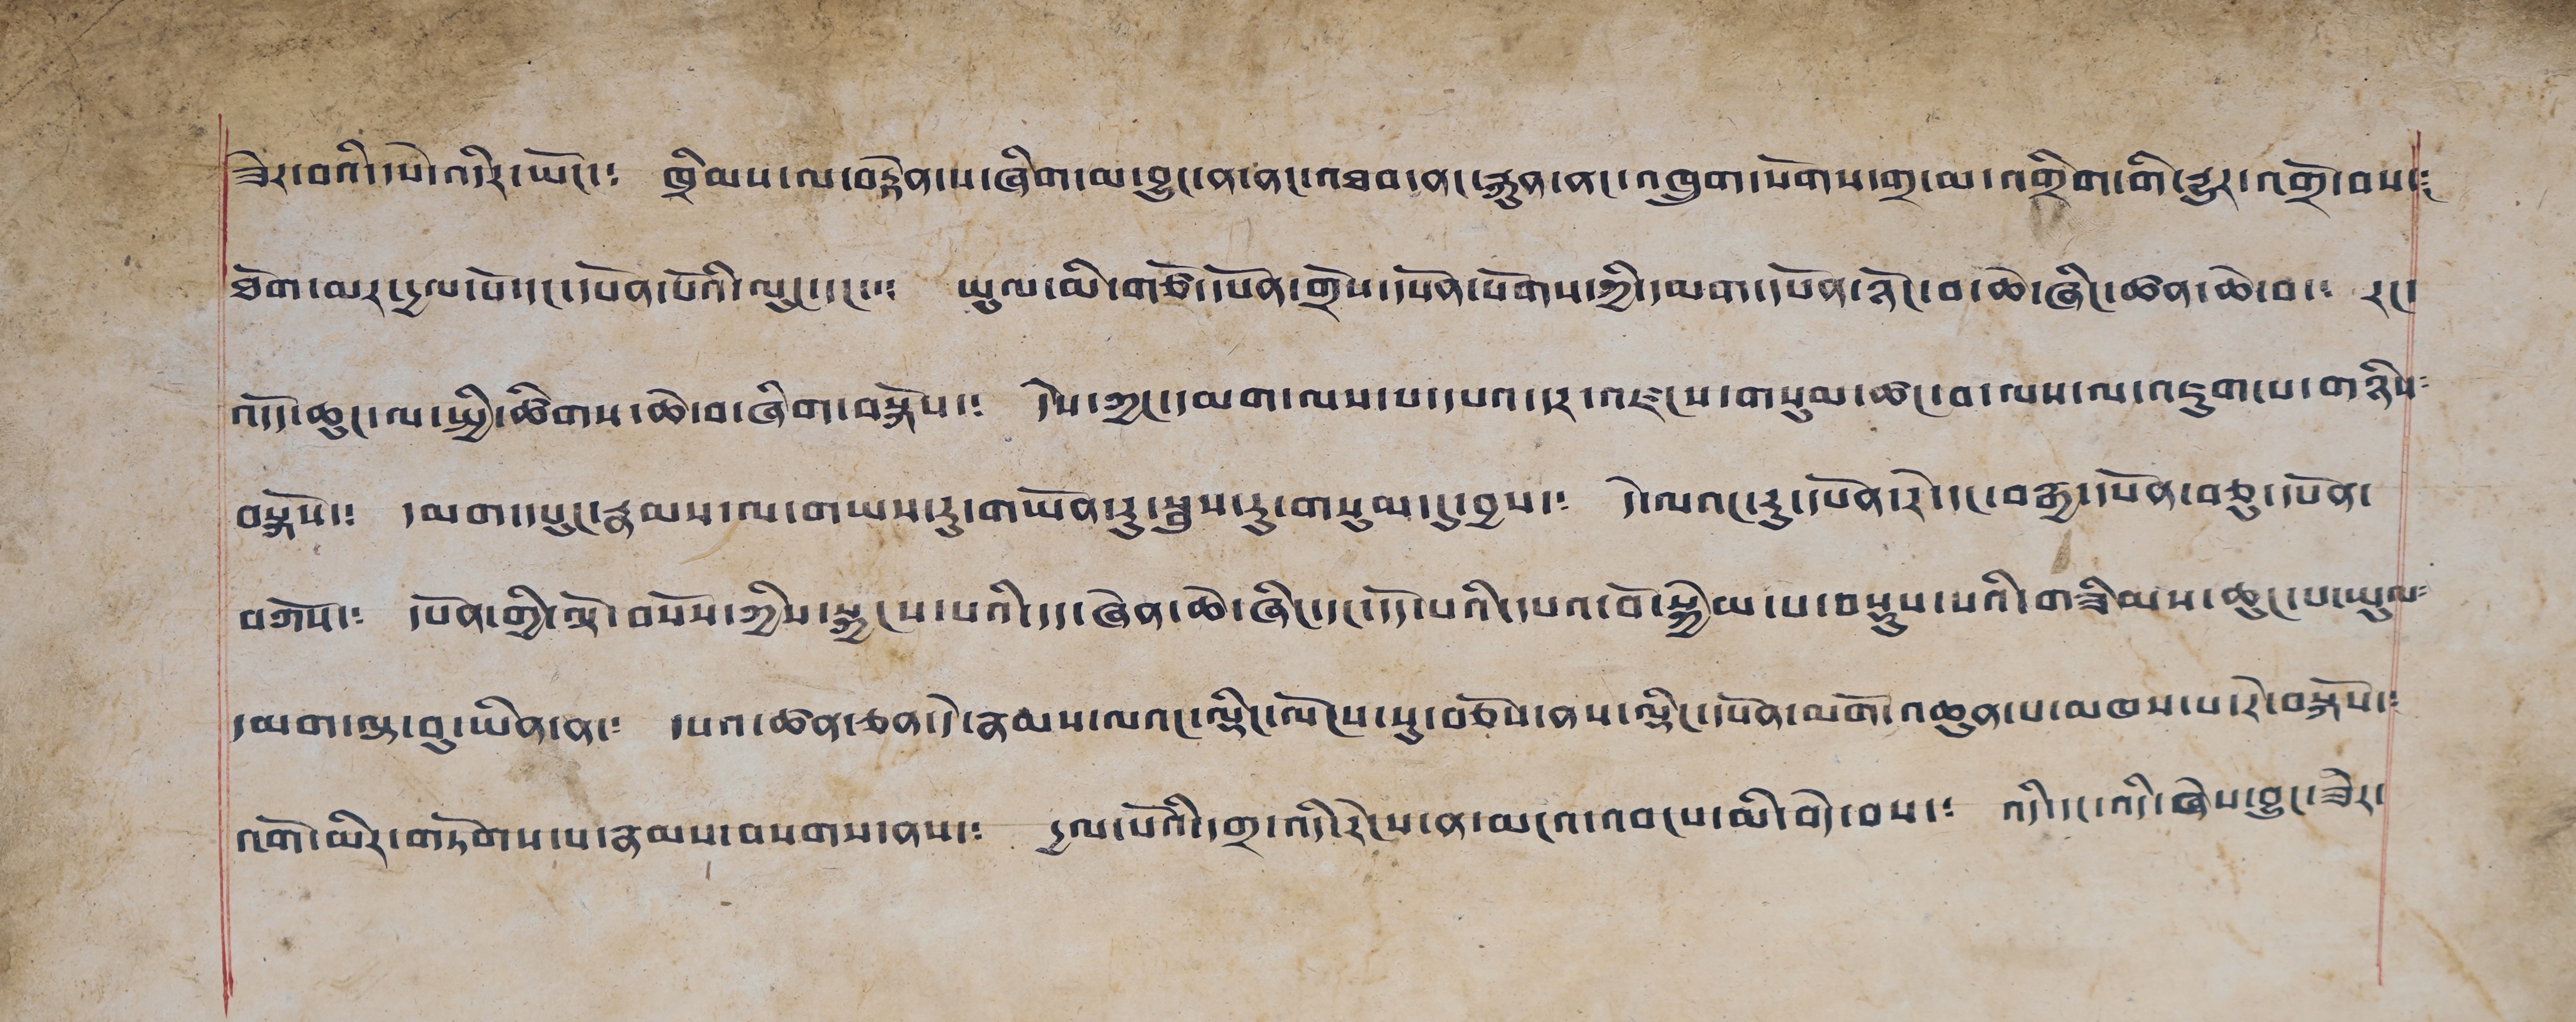ཟེར་བའི་དཔེ་འདིར་ཡོང་༴ ཁྲིམས་ལ་བརྟེན་པ་ཞིག་མ་བྱུང་ན་ནང་འཐབ་ནང་འཁྲུག་སོགས་གྲ་མ་འགྲིག་གི་རྒྱུར་འགྲོ་བས་༴
ཐོག་མར་དྲལ་པོ་དང་དཔོན་པོའི་ལུང་དང་༴ ཡུལ་མི་གཙོ་དཔོན་གྲོས་དཔོན་སོགས་ཀྱི་དམག་དཔོན་ཉོང་བ་ཆེ་ཞིང་ཚན་ཆེ་བ་༴ རང་
འདོད་ཆུང་ལ་སྤྱི་ཚིགས་ཆེ་བ་ཞིག་བསྐོས་༴ དེས་ཀྱང་དམག་ལས་པ་དཔའ་དར་འཛངས་གསུམ་ཚང་བ་ལས་ལ་འཇུག་པ་གཉིས༴
བསྐོས་༴ དམག་དཔུང་རྣམས་ལ་གཡས་རུ་གཡོན་རུ་སྦུས་རུ་གསུམ་དུ་བྱས་༴ དེ་ལའང་རུ་དཔོན་རེ་དང་བརྒྱ་དཔོན་བཅུ་དཔོན་
བཀོས་༴ དཔོན་གྱི་ལྟེ་བསོས་ཀྱས་སྐྱངས་པའི་དད་ཞེན་ཆེ་ཞིང་དང་དོད་པའི་དཔའ་བོ་སྐྱེམ་པ་བསྡུས་པའི་གཟིམས་ཆུང་པ་ཡུལ༴
དམག་ལྟ་བུ་ཡིན་ན་༴ དཔའ་ཚན་ཅན་དེ་རྣམས་ལའང་ལྡིང་ལོངས་སུ་བཅོས་ནས་ལྡིང་དཔོན་མགོ་འཆུན་པ་མཁས་པ་རེ་བསྐོས་༴
འགོ་མིར་གཏོགས་པ་རྣམས་བསགས་ནས་༴ དྱལ་པོའི་དགྲ་འདི་རེངས་ན་མངའ་འབངས་མི་བདེ་བས་། འདི་དང་འདི་ཞེས་བྱུང་ཟེར་
